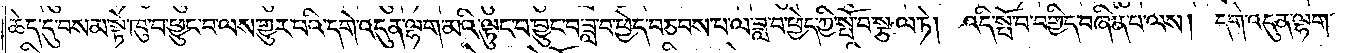ཆེད་དུ་བསམ་སྟེ་ཁུ་བ་ཕྱུང་བ་ལས་གྱུར་པའི་དགེ་འདུན་ལྷག་མའི་ལྟུང་བ་བྱུང་བ་ཟླ་བ་ཕྱེད་བཅབས་པ་ལ་ཟླ་བ་ཕྱེད་ཀྱི་སྤོ་བ་སྩལ་ཏེ། འདི་སྤོ་བ་བགྱིད་བཞིན་པ་ལས། དགེ་འདུན་ལྷག་
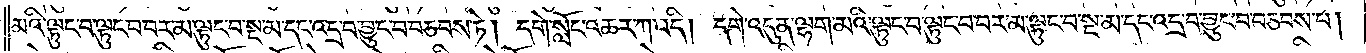མའི་ལྟུང་བ་ལྟུང་བ་བར་མ་ལྟུང་བ་སྔ་མ་དང་འདྲ་བ་བྱུང་བ་བཅབས་ཏེ། དགེ་སློང་འཆར་ཀ་འདི། དགེ་འདུན་ལྷག་མའི་ལྟུང་བ་ལྟུང་བ་བར་མ་ལྟུང་བ་སྔ་མ་དང་འདྲ་བ་བྱུང་བ་བཅབས་པ།
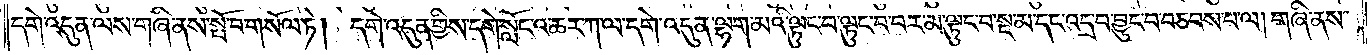དགེ་འདུན་ལས་གཞི་ནས་སྤོ་བ་གསོལ་ཏེ། དགེ་འདུན་གྱིས་དགེ་སློང་འཆར་ཀ་ལ་དགེ་འདུན་ལྷག་མའི་ལྟུང་བ་ལྟུང་བ་བར་མ་ལྟུང་བ་སྔ་མ་དང་འདྲ་བ་བྱུང་བ་བཅབས་པ་ལ། གཞི་ནས་
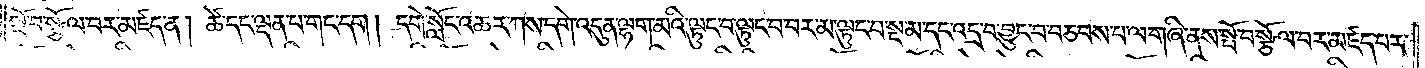སྤོ་བ་སྩོལ་བར་མཛད་ན། ཚེ་དང་ལྡན་པ་གང་དག། དགེ་སློང་འཆར་ཀས་དགེ་འདུན་ལྷག་མའི་ལྟུང་བ་ལྟུང་བ་བར་མ་ལྟུང་བ་སྔ་མ་དང་འདྲ་བ་བྱུང་བ་བཅབས་པ་ལ་གཞི་ནས་སྤོ་བ་སྩོལ་བར་མཛད་པར་
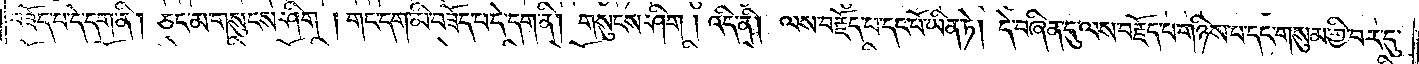བཟོད་པ་དེ་དག་ནི། ཅང་མ་གསུངས་ཤིག །གང་དག་མི་བཟོད་པ་དེ་དག་ནི། གསུངས་ཤིག །འདི་ནི། ལས་བརྗོད་པ་དང་པོ་ཡིན་ཏེ། དེ་བཞིན་དུ་ལས་བརྗོད་པ་གཉིས་པ་དང་གསུམ་གྱི་བར་དུ་
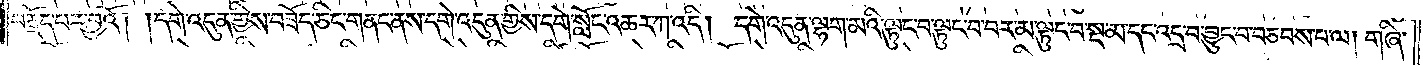བརྗོད་པར་བྱའོ། །དགེ་འདུན་གྱིས་བཟོད་ཅིང་གནང་ནས་དགེ་འདུན་གྱིས་དགེ་སློང་འཆར་ཀ་འདི། དགེ་འདུན་ལྷག་མའི་ལྟུང་བ་ལྟུང་བ་བར་མ་ལྟུང་བ་སྔ་མ་དང་འདྲ་བ་བྱུང་བ་བཅབས་པ་ལ། གཞི་
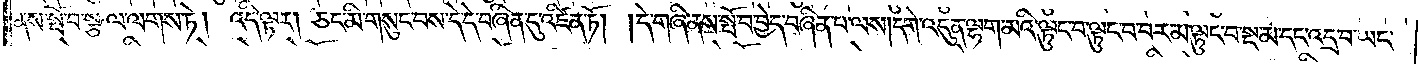ནས་སྤོ་བ་སྩལ་ལགས་ཏེ། འདི་ལྟར། ཅང་མི་གསུང་བས་དེ་དེ་བཞིན་དུ་འཛིན་ཏོ། །དེ་གཞི་ནས་སྤོ་བ་བྱེད་བཞིན་པ་ལས། དགེ་འདུན་ལྷག་མའི་ལྟུང་བ་ལྟུང་བ་བར་མ་ལྟུང་བ་སྔ་མ་དང་འདྲ་བ་ཡང་
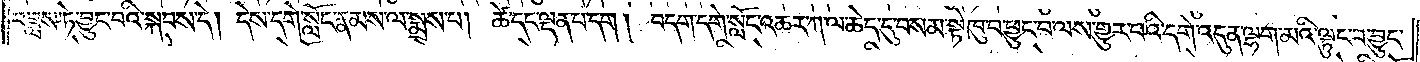བཟླས་ཏེ་བྱུང་བའི་སྐབས་དེ། དེས་དགེ་སློང་རྣམས་ལ་སྨྲས་པ། ཚེ་དང་ལྡན་པ་དག །བདག་དགེ་སློང་འཆར་ཀ་ལ་ཆེད་དུ་བསམ་སྟེ་ཁུ་བ་ཕྱུང་བ་ལས་གྱུར་པའི་དགེ་འདུན་ལྷག་མའི་ལྟུང་བ་བྱུང་
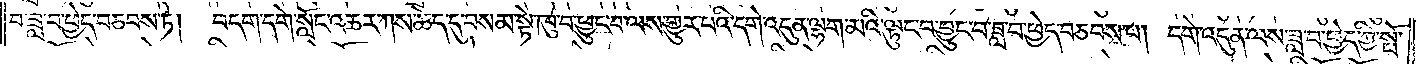བ་ཟླ་བ་ཕྱེད་བཅབས་ཏེ། བདག་དགེ་སློང་འཆར་ཀས་ཆེད་དུ་བསམ་སྟེ་ཁུ་བ་ཕྱུང་བ་ལས་གྱུར་པའི་དགེ་འདུན་ལྷག་མའི་ལྟུང་བ་བྱུང་བ་ཟླ་བ་ཕྱེད་བཅབས་པ། དགེ་འདུན་ལས་ཟླ་བ་ཕྱེད་ཀྱི་སྤོ་
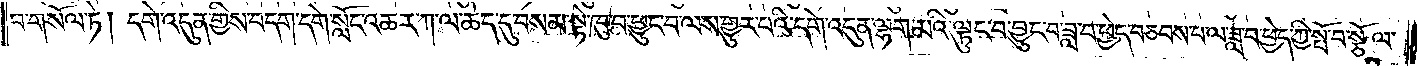བ་གསོལ་ཏེ། དགེ་འདུན་གྱིས་བདག་དགེ་སློང་འཆར་ཀ་ལ་ཆད་དུ་བསམ་སྟེ་ཁུ་བ་ཕྱུང་བ་ལས་གྱུར་པའི་དགེ་འདུན་ལྷག་མའི་ལྟུང་བ་བྱུང་བ་ཟླ་བ་ཕྱེད་བཅབས་པ་ལ་ཟླ་བ་ཕྱེད་ཀྱི་སྤོ་བ་སྩོལ་
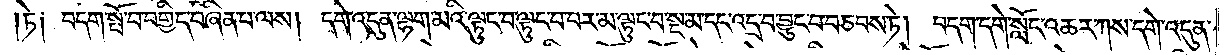ཏེ། བདག་སྤོ་བ་བགྱིད་བཞིན་པ་ལས། དགེ་འདུན་ལྷག་མའི་ལྟུང་བ་ལྟུང་བ་བར་མ་ལྟུང་བ་སྔ་མ་དང་འདྲ་བ་བྱུང་བ་བཅབས་ཏེ། བདག་དགེ་སློང་འཆར་ཀས་དགེ་འདུན་
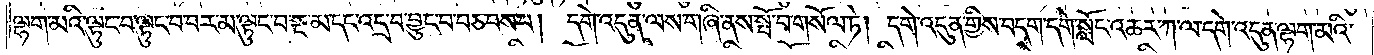ལྷག་མའི་ལྟུང་བ་ལྟུང་བ་བར་མ་ལྟུང་བ་སྔ་མ་དང་འདྲ་བ་བྱུང་བ་བཅབས་པ། དགེ་འདུན་ལས་གཞི་ནས་སྤོ་བ་གསོལ་ཏེ། དགེ་འདུན་གྱིས་བདག་དགེ་སློང་འཆར་ཀ་ལ་དགེ་འདུན་ལྷག་མའི་
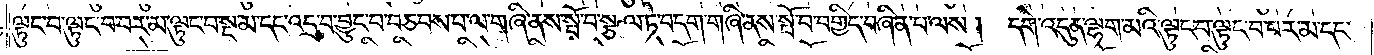ལྟུང་བ་ལྟུང་བ་བར་མ་ལྟུང་བ་སྔ་མ་དང་འདྲ་བ་བྱུང་བ་བཅབས་པ་ལ་གཞི་ནས་སྤོ་བ་སྩལ་ཏེ་བདག་གཞི་ནས་སྤོ་བ་བགྱིད་བཞིན་པ་ལས། དགེ་འདུན་ལྷག་མའི་ལྟུང་བ་ལྟུང་བ་བར་མ་དང་
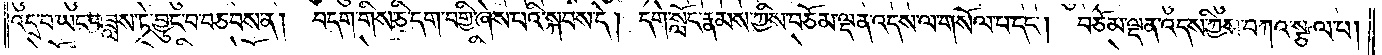འདྲ་བ་ཡང་བཟླས་ཏེ་བྱུང་བ་བཅབས་ན། བདག་གིས་ཅི་དག་བགྱི་ཞེས་པའི་སྐབས་དེ། དགེ་སློང་རྣམས་ཀྱིས་བཅོམ་ལྡན་འདས་ལ་གསོལ་པ་དང༌། བཅོམ་ལྡན་འདས་ཀྱིས་བཀའ་སྩལ་པ།
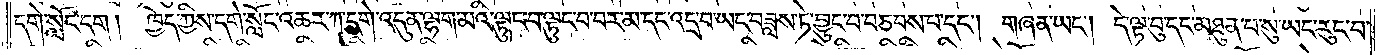དགེ་སློང་དག །ཁྱེད་ཀྱིས་དགེ་སློང་འཆར་ཀ་དགེ་འདུན་ལྷག་མའི་ལྟུང་བ་ལྟུང་བ་བར་མ་དང་འདྲ་བ་ཡང་བཟླས་ཏེ་བྱུང་བ་བཅབས་པ་དང༌། གཞན་ཡང༌། དེ་ལྟ་བུ་དང་མཐུན་པ་སུ་ཡང་རུང་བ་
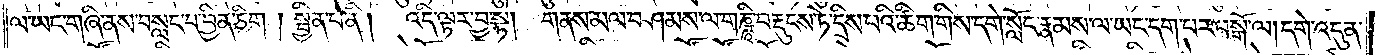ལ་ཡང་གཞི་ནས་བསླང་པ་བྱིན་ཅིག །སྦྱིན་པ་ནི། འདི་ལྟར་བྱ་སྟེ། གནས་མལ་བཤམས་ལ་གཎྜཱི་བརྡུངས་ཏེ་དྲིས་པའི་ཚིག་གིས་དགེ་སློང་རྣམས་ལ་ཡང་དག་པར་བསྒོ་ལ། དགེ་འདུན་
